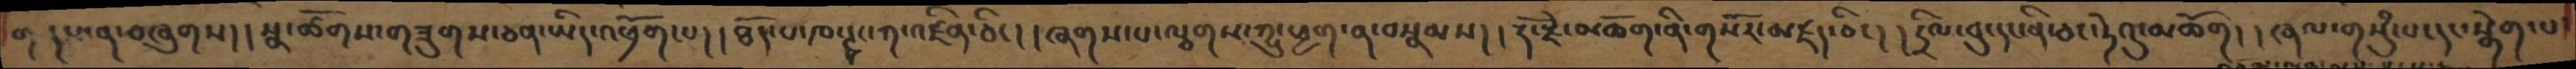གནས་ན་བཞུགས། །སྣ་ཚོགས་གཟུགས་ཅན་ཡིད་འཕྲོག་པ། །ཐོད་པ་ཁ་ཊྭང་ཀ་འཛིན་ཅིང། །ཞགས་པ་ལྕགས་ཀྱུ་ཕྱག་ན་བསྣམས། །རྡོ་རྗེ་མཆོག་ནི་གསོར་མཛད་ཅིང། ། དྲིལ་བུ་དང་ནི་ཅང་ཏེའུ་མཆོག། ། ཞལ་གསུཾ་པ་དང་སྒེག་པ་
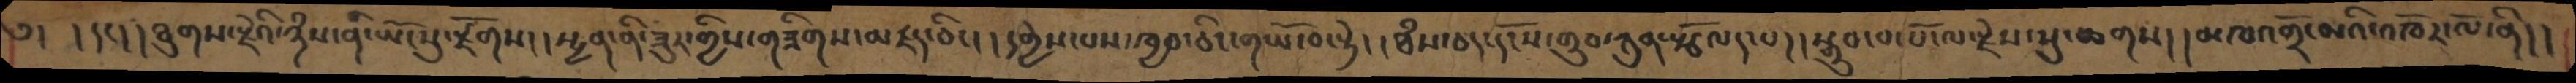༅།  །དང།།ཐུགས་རྗེའི་ཉཾས་ནི་ཡོངསུ་རྫོགས།།སྤྱན་ནི་ཟུར་གྱིས་གཟིགས་མཛད་ཅིང།།དགྱེས་པས་ཁྱབ་ཅིང་གཡོ་བ་སྟེ།།ཐཾས་ཅད་དངོས་གྲུབ་ཀུན་སྩོལད་པ།།སྒྲུབ་པ་པོ་ལ་རྗེས་སུ་ཆགས།།མཁའགྲོ་མའི་འཁོར་ལོ་ནི།།
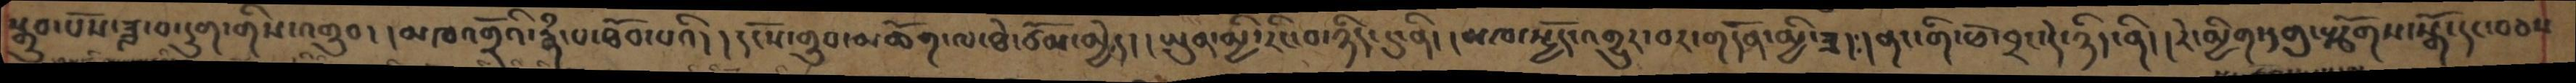སྒྲུབ་པོས་ཟླ་བ་དྲུག་གིས་འགྲུབ།།མཁའགྲོའི་རྣཾ་པ་ཐོབ་པའི།།དངོས་གྲུབ་མཆོག་ལ་ཐེ་ཙོམ་མྱེད།།ཡུན་མྱི་རིང་བ་ཉིད་དུ་ནི།།མཁ་སྤྱོད་འགྱུར་བར་གདོན་མྱི་ཟད།༴།ནང་གི་ཕོ་བྲང་དེ་ཉིད་ནི།།རེ་མྱིག་དགུ་སྩོགས་སྒོ་དང་བཅས
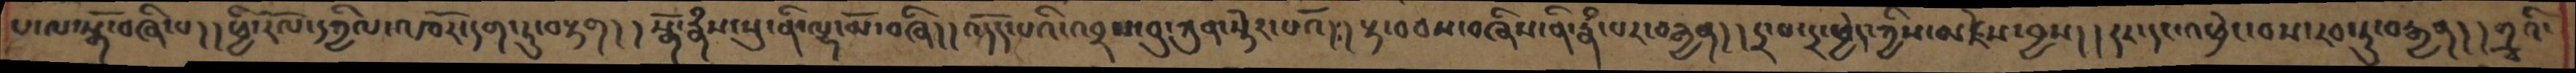པ་ལ་སྒོ་བཞི་པ། །ཕྱི་རོལ་དཀྱིལ་འཁོར་དག་ཏུ་བརྟག། ། སྒོ་རྣཾས་སུ་ནི་ལྷ་མོ་བཞི། ། འདོད་པའི་འབྲས་བུ་ཀུན་སྟེར་པའོ།༴། རྟ་བབས་བཞིས་ནི་རྣཾ་པར་བརྒྱན། །དྲ་པ་དྲ་ཕྱེད་ཀྱིས་མཛེས་བྱས། །དར་དང་འཕྲེང་བས་རབ་ཏུ་བརྒྱན། །གྲྭའི་
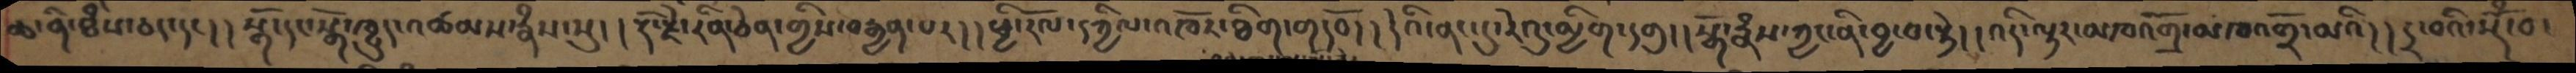ཆ་ནི་ཐཾས་ཅད་དང། །སྒོ་དང་སྒོ་ཁྱུད་འཚམས་རྣཾས་སུ། །རྡོ་རྗེ་རིན་ཅེན་གྱིས་བརྒྱན་པར། །ཕྱི་རོལ་དཀྱིལ་འཁོར་ཐིག་གདབོ། ། དེའི་ནང་དུ་རེའུ་མྱིག་དགུ། །སྒོ་རྣཾས་ཀྱང་ནི་བྱ་བ་སྟེ། །འདི་ལྟར་མཁའགྲོ་མཁའགྲོ་མའི། ། དྲ་བའི་སྡོཾ་བ་
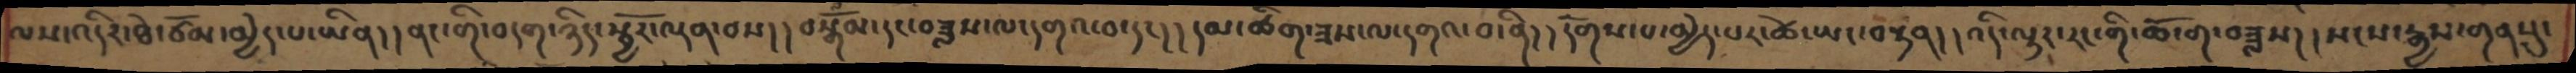ལས་འདིར་ཐེ་ཙོམ་མྱེད་པ་ཡིན། །ནང་གི་བདག་ཉིད་སྦྱོར་ལྡན་བསད། །བསྒོམ་དང་བཟླས་ལ་དགའབདང་། །དམ་ཚིག་ཟས་ལ་དགའ་བ་ནི། །དོགས་པ་མྱེད་པར་ཚེ་ཡང་བརྟན། །འདི་ལྟར་རང་གི་ཆོ་ག་བཟླས། །སངས་རྒྱས་གནསུ་
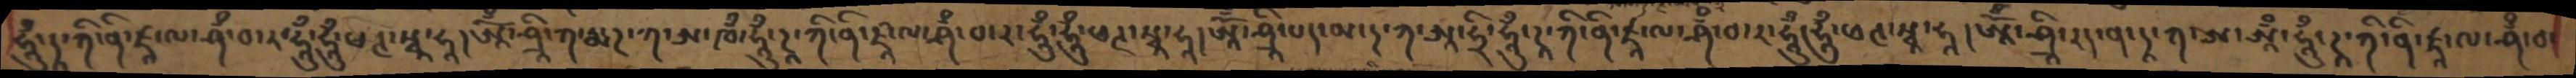ཧཱུྃ་དཱ་ཀི་ནི་ཛཱ་ལ་ཤྃ་བ་ར་ཧཱུྃ་ཧཱུྃ་ཕཊ་སྭཱ་ཧཱ །ཨཱོྃ་ཤྲཱི་ཀ་རྨ་ཌ་ཀ་ཨ་ཁྃ་ཧཱུྃ་ཌཱ་ཀི་ནི་ཛཱ་ལ་ཤྃ་བ་ར་ཧཱུྃ་ཧཱུྃ་ཕཊ་སྭཱ་ཧཱ། ཨཱོཾ་ཤྲཱི་པད་མ་ཌ་ཀ་ཨཱ་ཧྲི་ཧཱུྃ་ཌཱ་ཀི་ནི་ཛཱ་ལ་ཤྃ་བ་ར་ཧཱུྃ་ཧཱུྃ་ཕཊ་སྭཱ་ཧཱ །ཨོྃ་ཤྲཱི་རད་ན་དཱ་ཀ་ཨ་ཨཱྃ་ཧཱུྃ་ཌཱ་ཀི་ནི་ཛཱ་ལ་ཤྃ་བ་
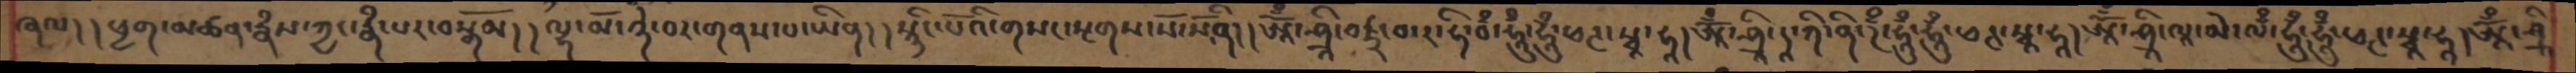ཞལ། །ཕྱག་མཚན་རྣཾས་ཀྱང་རྣཾ་པར་བསྒོམ། །ལྷ་མོ་ཉེ་བར་གནས་པ་ཡིན། །སྙིང་པོའི་གསང་སྔགས་སོ་སོ་ནི། །ཨཱོྃ་ཤྲཱི་བཛྲ་བ་ར་ཧི་བྃ་ཧཱུྃ་ཧཱུྃ་ཕཊ་སྭཱ་ཧཱ།ཨཱོྃ་ཤྲཱི་དཱ་ཀི་ནི་ཌྃ་ཧཱུྃ་ཧཱུྃ་ཕཊ་སྭཱ་ཧཱ།ཨཱོྃ་ཤྲི་ལཱ་མེ་ལྃ་ཧཱུྃ་ཧཱུྃ་ཕཊ་སྭཱ་ཧཱ། ཨཱོྃ་ཤྲཱི
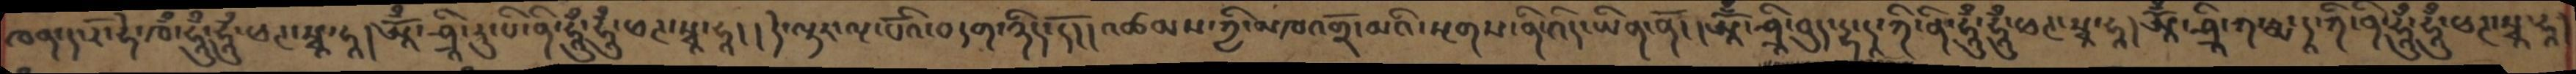ཁན་ད་རོ་ཧེ་ཁྃ་ཧཱུྃ་ཧཱུྃ་ཕཊསྭཱ་ཧཱ། ཨཱོྃ་ཤྲཱི་རུ་པི་ནི་ཧཱུྃ་ཧཱུྃ་ཕཊ་སྭཱ་ཧཱ། །དེ་ལྟར་ལྔ་པོའི་བདག་ཉིད་དོ། །འཚམས་ཀྱི་མཁའགྲོ་མའི་སྔགས་ནི་འདི་ཡིན་ནོ། །ཨཱོྃ་ཤྲཱི་བུད་དྷ་ཌཱ་ཀི་ནི་ཧཱུྃ་ཧཱུྃ་ཕཊ་སྭཱ་ཧཱ། །ཨཱོྃ་ཤྲཱི་ཀ་རྨ་ཌཱ་ཀི་ནི་ཧཱུྃ་ཧཱུྃ་ཕཊ་སྭཱ་ཧཱ།
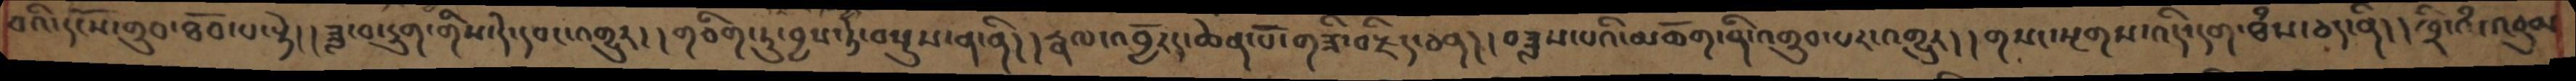བའི་དངོས་གྲུབ་ཐོབ་པ་སྟེ། །ཟླ་བ་དྲུག་གིས་དེ་དབང་འགྱུར། །གཅིག་ཏུ་བྱས་ཏེ་བསུས་ན་ནི། །རྣལ་འབྱོརད་ཆེན་པོ་གཟི་བརྗིད་ཅན། །བཟླས་པའི་མཆོག་ནི་འགྲུབ་པར་འགྱུར། །གསང་སྔགས་འདི་དག་ཐཾས་ཅད་ནི། །ཁྲི་འཾ་འབུམ
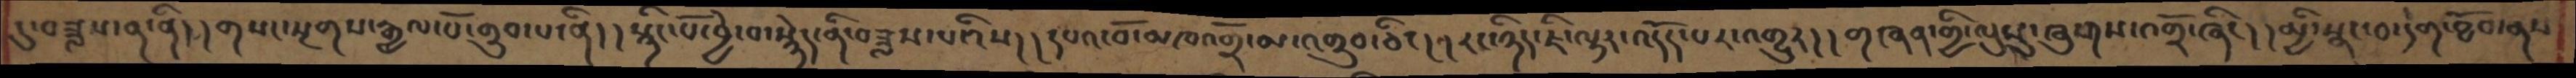དུ་བཟླས་ན་ནི། །གསང་སྔགས་རྒྱལ་པོ་གྲུབ་པ་ནི། །སྙིང་པོ་བྱེ་བ་སྙེད་ནི་བཟླས་པའིས། །དཔའ་བོ་མཁའགྲོ་མ་འགྲུབ་ཅིང། །རང་ཉིད་ཇི་ལྟར་འདོད་པར་འགྱུར། །གཞན་གྱི་ལུསུ་ཞུགས་འགྲོ་ཞིང། །མྱི་སྣང་བ་དེག་ཐོབ་ནས
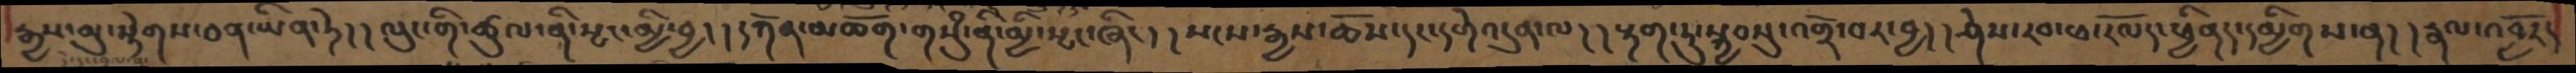རྒྱས་མུ་སྟེགས་ཅན་ཡིན་ཏེ་། །ལུང་གི་ཚུལ་ནི་སྤང་མྱི་བྱད། དཀོན་མཆོག་གསུམ་ནི་མྱི་སྤང་ཞིང་། །སངས་རྒྱས་ཆོས་དང་དགེ་འདུན་ལ། །རྟག་ཏུ་སྐྱབསུ་འགྲོ་བར་བྱ། །ཤེས་རབ་ཕ་རོལད་ཕྱིནད་དམྱིགས་ན། །རྣལ་འབྱོརད
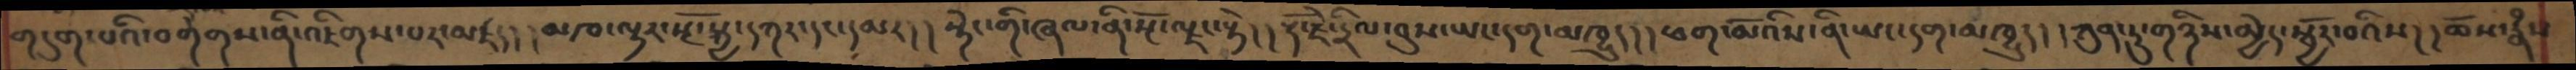གདུག་པའི་བགེགས་ནི་འཇིགས་པར་མཛད། །མཁ་ལྟར་སྔོ་སྐྱ་དཀར་དང་དམར། །སྟེང་གི་ཞལ་ནི་སྔོ་ལྗང་སྟེ། །རྡོ་རྗེ་དྲིལ་བུས་ཡང་དག་མཁྱུད། །ཕག་མོའིས་ནི་ཡང་དག་མཁྱུད། །ཀུན་ཏུ་གཉིས་མྱེད་སྦྱོར་བའིས། །ཆོས་རྣཾས
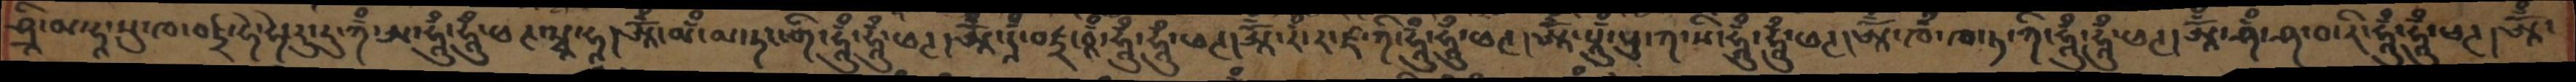ཤྲཱི་མ་ཧཱ་སུ་ཁ་བཛྲ་ཧེ་ཧེ་རུ་རུ་ཀྃ་ཨ་ཧཱུྃ་ཧཱུྃ་ཕཊ་སྭཱ་ཧཱ། ཨཱོྃ་མྃ་མ་ཏང་གི་ཧཱུྃ་ཧཱུྃ་ཕཊ། ཨཱོྃ་དཱྃ་བཛྲ་བཱྃ་ཧཱུྃ་ཧཱུྃ་ཕཊ། ཨཱོཾ་རྃ་ར་ཛ་ཀི་ཧཱུྃ་ཧཱུྃ་ཕཊ། ཨཱོཾ་པཱུྃ་སུ་ཀ་སི་ཧཱུཾ་ཧཱུཾ་ཕཊ། ཨཱོཾ་ཁྃ་ཁ་ཏ་ཀི་ཧཱུྃ་ཧཱུཾ་ཕཊ། ཨཱོྃ་ཤྃ་ཤ་བ་རི་ཧཱུྃ་ཧཱུྃ་ཕཊ། ཨཱོྃ་
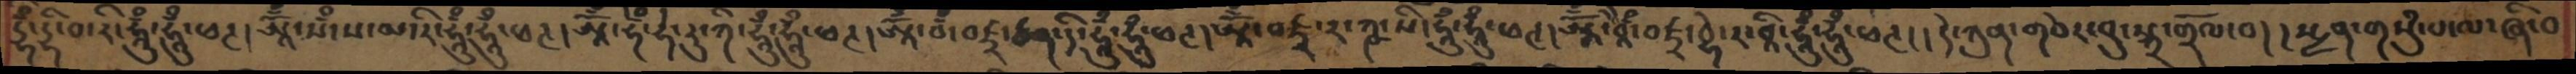དྷྃ་དྷི་བ་རི་ཧཱུྃ་ཧཱུྃ་ཕཊ། ཨོྃ་སྃ་ས་མ་རི་ཧཱུྃ་ཧཱུྃ་ཕཊ། ཨཱོྃ་ཧྃ་ཧེ་རུ་ཀི་ཧཱུཾ་ཧཱུྃ་ཕཊ། ཨཱོྃ་བྃ་བཛྲ་ཙན་དི་ཧཱུྃ་ཧཱུཾ་ཕཊ།  ཨཱོྃ་བཛྲ་ར་ཀྵ་སི་ཧཱུྃ་ཧཱུྃ་ཕཊ། ཨཱོྃ་བཱཻྃ་བཛྲ་བྷེ་ར་བཱི་ཧཱུྃ་ཧཱུྃ་ཕཊ། དེ་ཀུན་གཅེར་བུ་སྐྲ་གྲོལ་བ། སྤྱན་གསུཾ་པ་ལ་ཞི་བ་
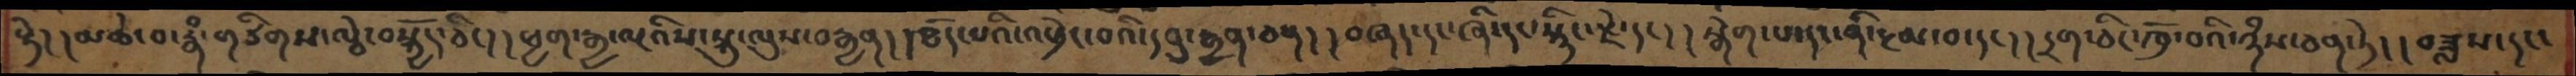སྟེ། །མཆེ་བ་རྣཾ་གཙིགས་ལྕེ་བསྐྱོད་ཅིང། །ཕྱག་རྒྱ་ལྔའིས་སྐུ་ལུས་བརྒྱན། །ཐོད་པའི་འཕྲེང་བའི་དབུ་རྒྱན་ཅན། །བཞད་དང་ཞི་དང་སྙིང་རྗེ་དང། །སྒེག་པ་དང་ནི་རྔམ་བ་དང། །དྲག་ཅིང་ཁྲོ་བའི་ཉཾས་ཅན་ཏེ། །བཟླས་དང་
